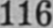116
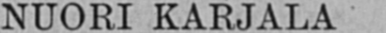NUORI KARJALA
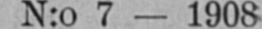N:o 7 — 1908
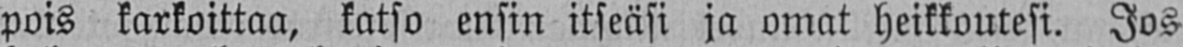pois karkoittaa, katso ensin itseäsi ja omat heikkoutesi. Jos
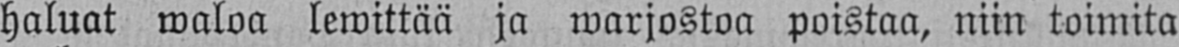haluat waloa lewittää ja warjostoa poistaa, niin toimita
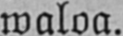waloa.
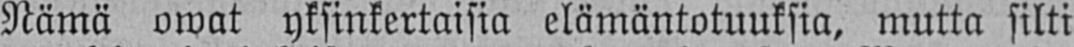Nämä owat yksinkertaisia elämäntotuuksia, mutta silti
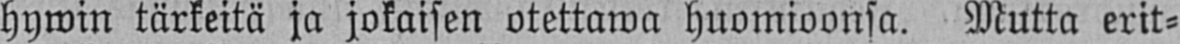hywin tärkeitä ja jokaisen otettawa huomioonsa. Mutta erit-
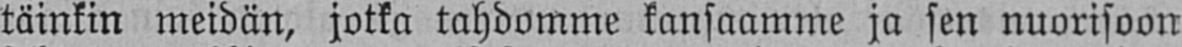täinkin meidän, jotka tahdomme kansaamme ja sen nuorisoon
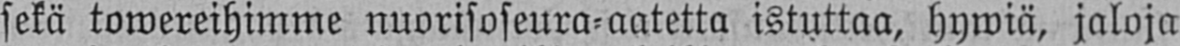sekä towereihimme nuorisoseura-aatetta istuttaa, hywiä, jaloja
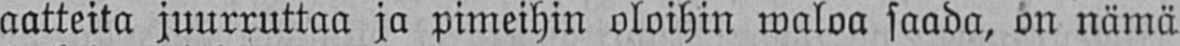aatteita juurruttaa ja pimeihin oloihin waloa saada, on nämä
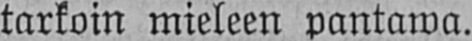tarkoin mieleen pantawa.
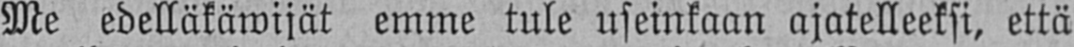Me edelläkäwijät emme tule useinkaan ajatelleeksi, että
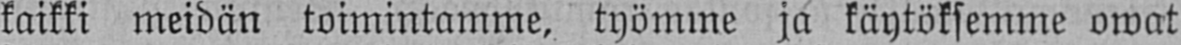kaikki meidän toimintamme, työmme ja käytöksemme owat
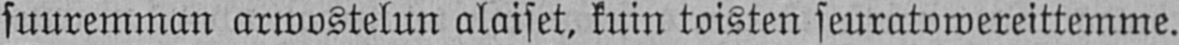suuremman arwostelun alaiset, kuin toisten seuratowereittemme.
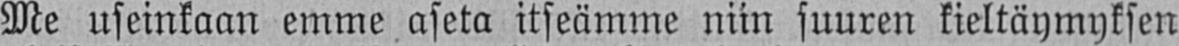Me useinkaan emme aseta itseämme niin suuren kieltäymyksen
